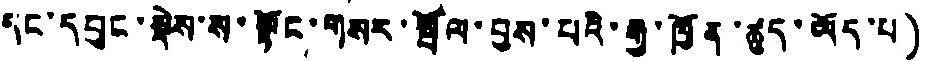དང་དབུང་སྡེས་ས་སྟོང་གསར་སྦོལ་བྱས་པའི་རྒྱ་ཁྱོན་ཚུད་ཡོད་པ)
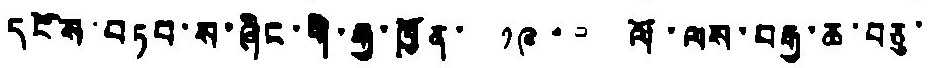དངོས་བཏབ་ས་ཞིང་གི་རྒྱ་ཁྱོན་ ༡༩༠༠ ལོ་ལས་བརྒྱ་ཆ་བཅུ་
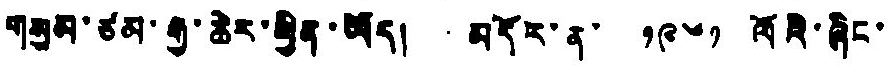གསུམ་ཙམ་རྒྱ་ཆེར་ཕྱིན་ཡོད། མདོར་ན་ ༡༩༦༡ ལོའི་ཞིང་
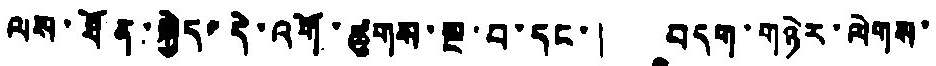ལས་ཐོན་སྐྱེད་དེ་འགོ་ཚུགས་ལྔ་བ་དང་། བདག་གཉེར་ལེགས་
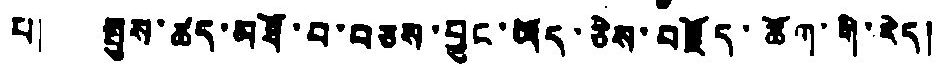པ། སྤུས་ཚད་མཐོ་བ་བཅས་བྱུང་ཡོད་ཅེས་བརྗོད་ཆོག་གི་རེད།
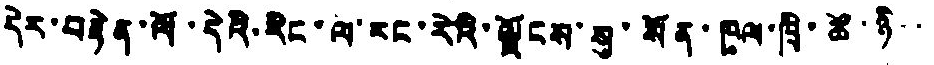དེར་བརྟེན་ལོ་དེའི་རིང་ལ་རང་རེའི་ལྗོངས་སུ་སོན་ཁུལ་ཁྲི་ཚོ་ཉི་་
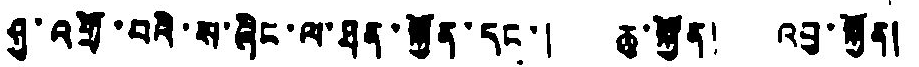ཤུ་འགྲི་བའི་ས་ཞིང་ལ་ཐན་སྐྱོན་དང་། ཆུ་སྐྱོན། འབུ་སྐྱོན།
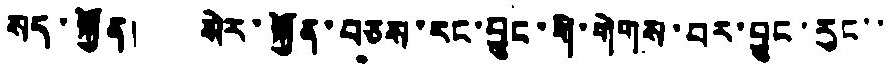སད་སྐྱོན། སེར་སྐྱོན་བཅས་རང་བྱུང་གི་གེགས་བར་བྱུང་རུང་་
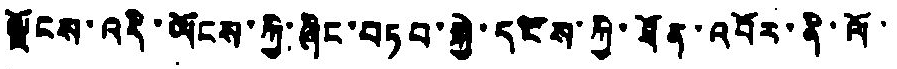ལྗོངས་འདི་ཡོངས་ཀྱི་ཞིང་བཏབ་སྐྱེ་དངོས་ཀྱི་ཐོན་འབོར་ནི་ལོ་
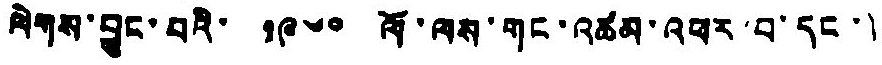ལེགས་བྱུང་བའི་ ༡༩༦༠ ལོ་ལས་གང་འཚམ་འཕར་བ་དང་།
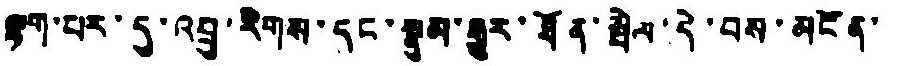ལྷག་པར་དུ་འབྲུ་རིགས་དང་སྣུམ་རྒྱུར་ཐོན་སྤེལ་དེ་བས་མངོན་
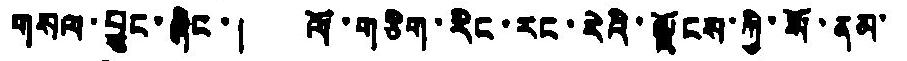གསལ་བྱུང་ཞིང་། ལོ་གཅིག་རིང་རང་རེའི་ལྗོངས་ཀྱི་སོ་ནམ་
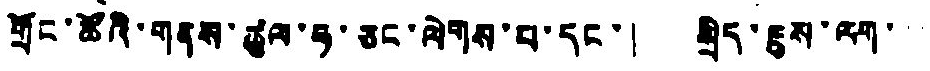གྲོང་ཚོའི་གནས་ཙུལ་ཧ་ཅང་ལེགས་པ་དང་། སྲིད་ཇུས་ལག་་་
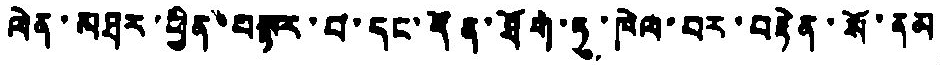ལེན་མཐར་ཕྱིན་བསྟར་བ་དང་དོན་ཐོག་ཏུ་ཁེལ་བར་བརྟེན་སོ་ནམ
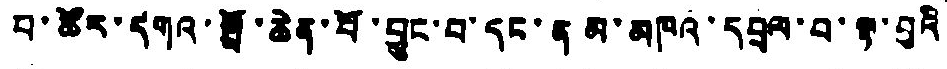བ་ཚོར་དགའ་སྤྲོ་ཆེན་པོ་བྱུང་བ་དང་ནམ་མཁའ་དབྲལ་བ་ལྟ་བུའི
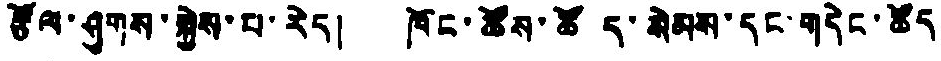རྩོལ་ཤུགས་སྐྱེས་པ་རེད། ཁོང་ཚོས་ཚོད་སེམས་དང་གདེང་ཚོད
